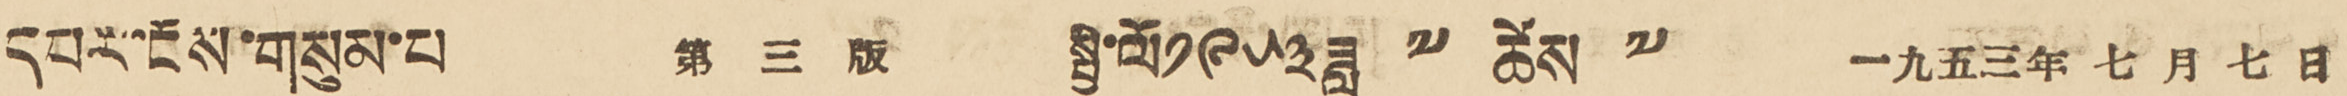དཔར་ངོས་གསུམ་པ 第 三 版 སྤྱི་ལོ ༡༩༥༣ ཟླ ༧ ཚེས ༧ 一九五三年七月七日
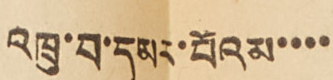འཁྲུ་བ་དམར་པོའམ་་་་
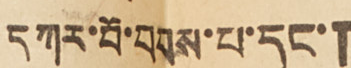དཀར་བོ་བབས་པ་དང་།
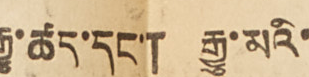རྒྱུ་ཚད་དང་། རྒྱུ་མའི་
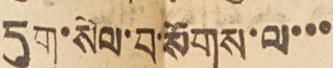དུག་སེལ་བ་སོགས་ལ་་་
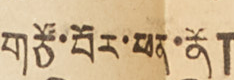གཙོ་བོར་ཕན་ནོ།
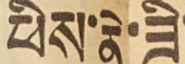ཕིས་ནེ་ཟི་
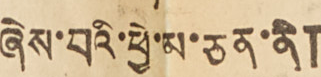ཞེས་པའི་ཕྱེ་མ་ཅན་ནི།
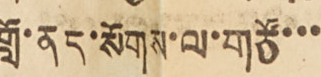གློ་ནད་སོགས་ལ་གཙོ་་་
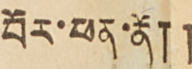བོར་ཕན་ནོ༎
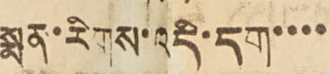སྨན་རིགས་འདི་དག་་་་
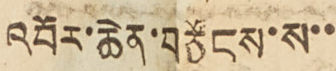འབོར་ཆེན་བཙོངས་ས་་
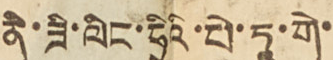ནི་ཟི་ལིང་ཧྲིའི་པེ་ཏཱ་གེ་
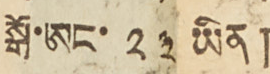སྒོ་ཨང་ ༢༣ ཡིན།
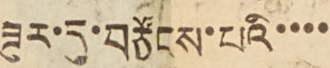ཟུར་དུ་བཙོངས་པའི་་་་
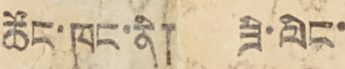ཚོང་ཁང་ནི། ཟི་ལིང་
